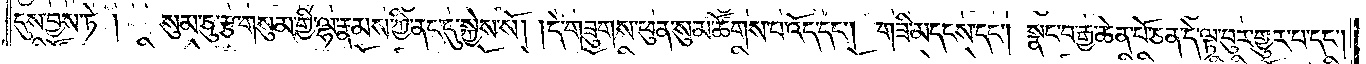དུས་བྱས་ཏེ།   སུམ་ཅུ་རྩ་གསུམ་གྱི་ལྷ་རྣམས་ཀྱི་ནང་དུ་སྐྱེས་སོ། །དེ་གཟུགས་ཕུན་སུམ་ཚོགས་པ་འོད་དང༌། གཟི་མདངས་དང༌། སྣང་བ་རྒྱ་ཆེན་པོ་ཅན་དེ་ལྟ་བུར་གྱུར་པ་དང༌།
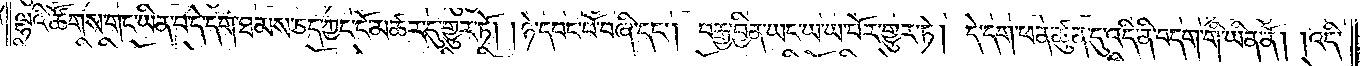ལྷའི་ཚོགས་གང་ཡིན་པ་དེ་དག་ཐམས་ཅད་ཀྱང་ངོ་མཚར་དུ་གྱུར་ཏོ། །ཉེ་དབང་པོ་བཞི་དང༌། བརྒྱ་བྱིན་ཡང་ཡ་ཡ་པོར་གྱུར་ཏེ། དེ་དག་ཕན་ཚུན་དུ་འདི་ནི་བདག་གི་ཡིན་ནོ། །འདི་
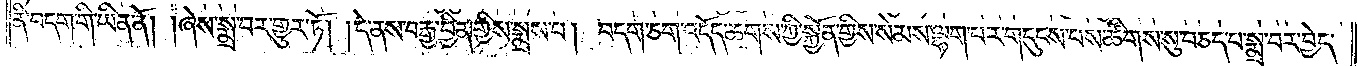ནི་བདག་གི་ཡིན་ནོ། །ཞེས་སྨྲ་བར་གྱུར་ཏོ། །དེ་ནས་བརྒྱ་བྱིན་གྱིས་སྨྲས་པ། བདག་ཅག་འདོད་ཆགས་ཀྱི་སྐྱོན་གྱིས་སེམས་ལྷག་པར་གདུངས་པས་ཚིགས་སུ་བཅད་པ་སྨྲ་བར་བྱེད་
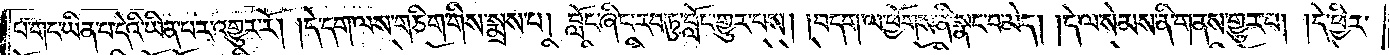པ་གང་ཡིན་པ་དེའི་ཡིན་པར་འགྱུར་རོ། །དེ་དག་ལས་གཅིག་གིས་སྨྲས་པ། བློང་ཞིང་རབ་ཏུ་བློང་གྱུར་པས། །བདག་ལ་ཕྱོགས་ནི་སྣང་བ་མེད། །དེ་ལ་སེམས་ནི་གནས་གྱུར་པ། །དེ་ཕྱིར་
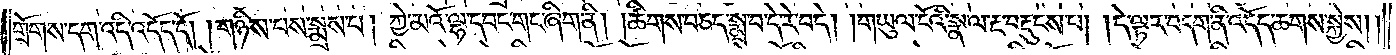གྲོགས་དག་འདི་འདོད་དོ། །གཉིས་པས་སྨྲས་པ། ཀྱེ་མའོ་ལྷ་དབང་གང་ཞིག་ནི། །ཚིགས་བཅད་སྨྲ་བ་དེ་རེ་བདེ། །གཡུལ་ངོའི་སྣ་ལ་རྔ་བརྡུངས་པ། །དེ་ལྟར་བདག་ནི་འདོད་ཆགས་སྐྱེས། །
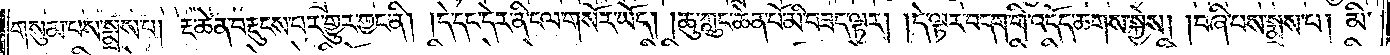གསུམ་པས་སྨྲས་པ། རྔ་ཆེན་བརྡུངས་པར་གྱུར་ཀྱང་ནི། །དེ་དང་དེར་ནི་ངལ་གསོར་ཡོད། །ཆུ་ཀླུང་ཆེན་པོ་མི་བཟད་ལྟར། །དེ་ལྟར་བདག་གི་འདོད་ཆགས་སྐྱེས། །བཞི་པས་སྨྲས་པ། མི་
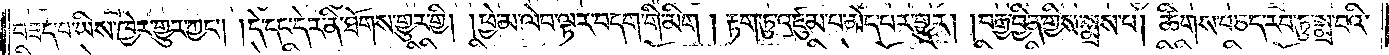བཟད་པ་ཡིས་ཁྱེར་གྱུར་ཀྱང༌། །དེ་དང་དེར་ནི་ཐོགས་གྱུར་གྱི། །ཕྱེ་མ་ལེབ་ལྟར་བདག་གི་མིག །རྟག་ཏུ་འཛུམ་པ་མེད་པར་གྱུར། །བརྒྱ་བྱིན་གྱིས་སྨྲས་པ། ཚིགས་བཅད་རབ་ཏུ་སྨྲ་བའི་
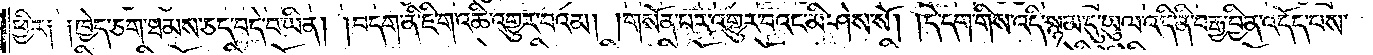ཕྱིར༑ ༑ཁྱེད་ཅག་ཐམས་ཅད་བདེ་བ་ཡིན། །བདག་ནི་ཇི་ག་འཆི་འགྱུར་བའམ། །གསོན་པར་འགྱུར་བའང་མི་ཤེས་སོ། །དེ་དག་གིས་འདི་སྙམ་དུ་ཡུལ་འདི་ནི་བརྒྱ་བྱིན་འདོད་པས་
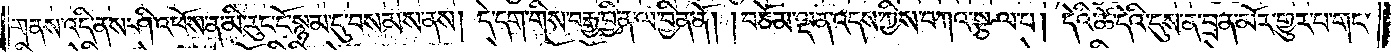གནས་འདི་ནས་ཤི་འཕོས་ན་མི་རུང་ངོ་སྙམ་དུ་བསམས་ནས། དེ་དག་གིས་བརྒྱ་བྱིན་ལ་བྱིན་ནོ། །བཅོམ་ལྡན་འདས་ཀྱིས་བཀའ་སྩལ་པ། དེའི་ཚེ་དེའི་དུས་ན་བྲན་མོར་གྱུར་པ་གང་
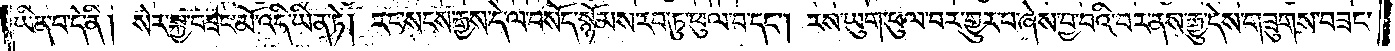ཡིན་པ་དེ་ནི། སེར་སྐྱ་བཟང་མོ་འདི་ཡིན་ཏེ། རང་སངས་རྒྱས་དེ་ལ་བསོད་སྙོམས་རབ་ཏུ་ཕུལ་བ་དང༌། རས་ཡུག་ཕུལ་བར་གྱུར་པ་ཞེས་བྱ་བའི་བར་ནས་རྒྱུ་དེས་གཟུགས་བཟང་
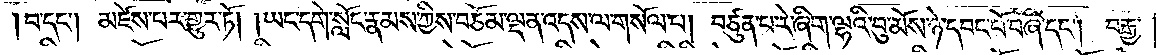བ་དང༌། མཛེས་པར་གྱུར་ཏོ། །ཡང་དགེ་སློང་རྣམས་ཀྱིས་བཅོམ་ལྡན་འདས་ལ་གསོལ་པ། བཙུན་པ་རེ་ཞིག་ལྷའི་བུ་མོས་ཉེ་དབང་པོ་བཞི་དང༌། བརྒྱ་
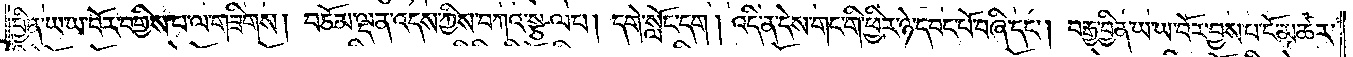བྱིན་ཡ་ཡ་བོར་བགྱིས་པ་ལ་གཟིགས། བཅོམ་ལྡན་འདས་ཀྱིས་བཀའ་སྩལ་པ། དགེ་སློང་དག། འདི་ན་དེས་གང་གི་ཕྱིར་ཉེ་དབང་པོ་བཞི་དང༌། བརྒྱ་བྱིན་ཡ་ཡ་བོར་བྱས་པ་ངོ་མཚར་
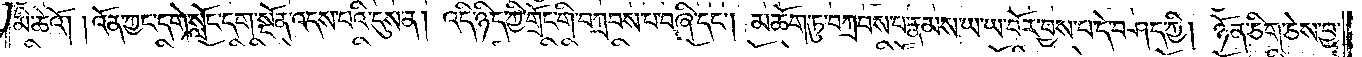མི་ཆེའོ། །འོན་ཀྱང་དགེ་སློང་དག་སྔོན་འདས་པའི་དུས་ན། འདི་ཉིད་ཀྱི་གྲོང་གི་བཀྲབས་པ་བཞི་དང༌། མཆོག་ཏུ་བཀྲབས་པ་རྣམས་ཡ་ཡ་བོར་བྱས་པ་དེ་བཤད་ཀྱི། ཉོན་ཅིག་ཅེས་བྱ་
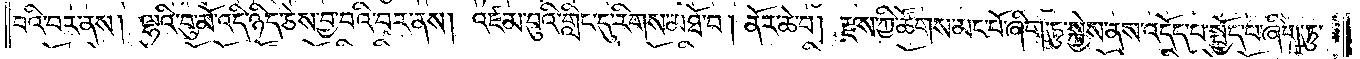བའི་བར་ནས། ལྷའི་བུ་མོ་འདི་ཉིད་ཅེས་བྱ་བའི་བར་ནས། འཛམ་བུའི་གླིང་དུ་རིགས་མཐོ་བ། ནོར་ཆེ་བ། རྫས་ཀྱི་ཚོགས་མང་པོ་ཞིག་ཏུ་སྐྱེས་ནས་འདོད་པ་སྤྱོད་པ་ཞིག་ཏུ་
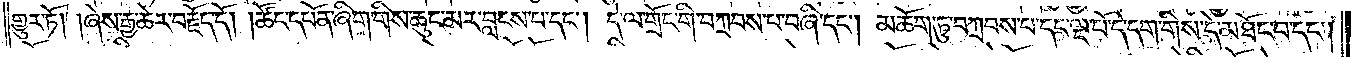གྱུར་ཏོ། །ཞེས་རྒྱ་ཆེར་བརྗོད་དོ། །ཚོང་དཔོན་ཞིག་གིས་ཆུང་མར་བླངས་པ་དང༌། དེ་ལ་གྲོང་གི་བཀྲབས་པ་བཞི་དང༌། མཆོག་ཏུ་བཀྲབས་པ་དང་ལྔ་པོ་དེ་དག་གིས་དེ་མཐོང་བ་དང༌།
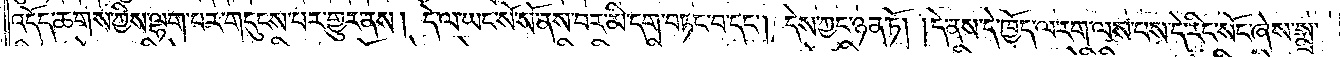འདོད་ཆགས་ཀྱིས་ལྷག་པར་གདུངས་པར་གྱུར་ནས། དེ་ལ་ཡང་སོ་སོ་ནས་བར་མི་དག་བཏང་བ་དང༌། དེས་ཀྱང་ཉན་ཏོ། །དེ་ནས་དེ་ཁྱོད་ལ་རག་ལས་པས་དེ་རིང་སོང་ཞེས་སྨྲ་
